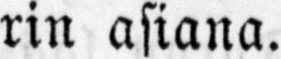rin asiana.
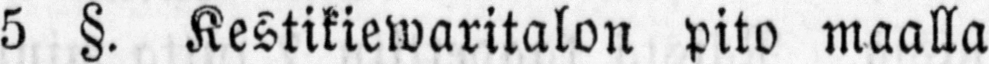5 §. Kestikiewaritalon pito maalla
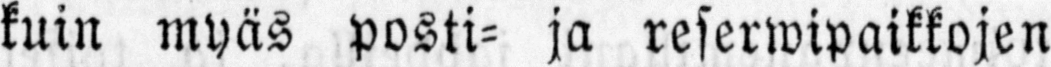kuin myäs posti- ja reserwipaikkojen
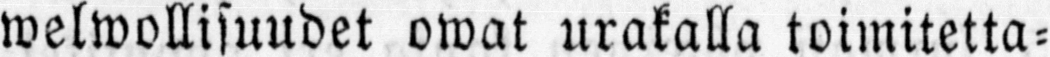welwollisuudet owat urakalla toimitetta-
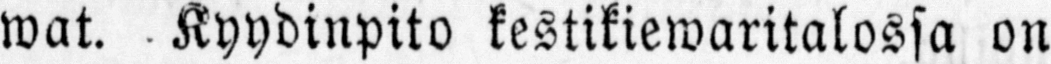wat. Kyydinpito kestikiewaritalossa on
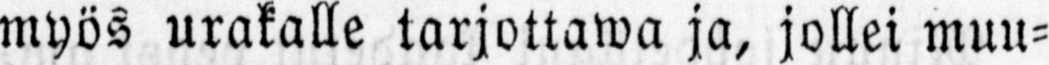myös urakalle tarjottawa ja, jollei muu-
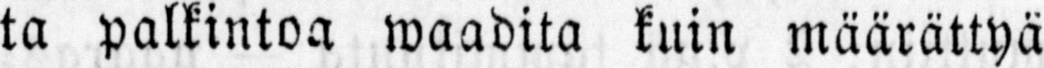ta palkintoa waadita kuin määrättyä
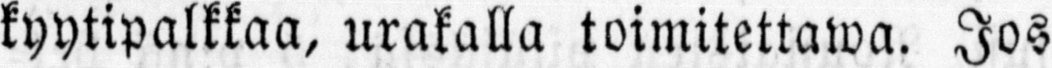kyytipalkkaa, urakalla toimitettawa. Jos
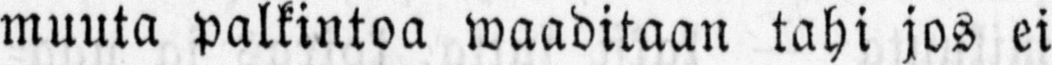muuta palkintoa waaditaan tahi jos ei
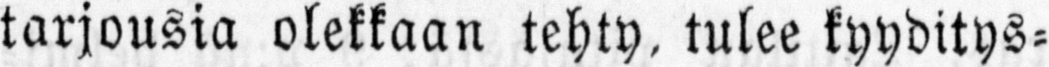tarjousia olekkaan tehty, tulee kyyditys-
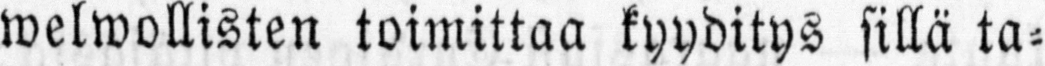welwollisten toimittaa kyyditys sillä ta-
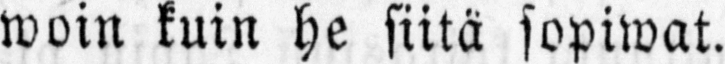woin kuin he siitä sopiwat.
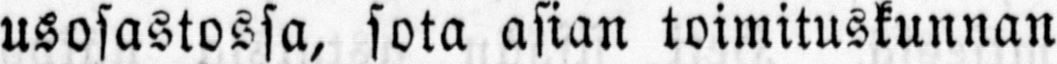usosastossa, sota asian toimituskunnan
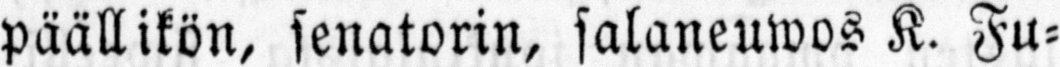päällikön, senatorin, salaneuwos K. Fu-
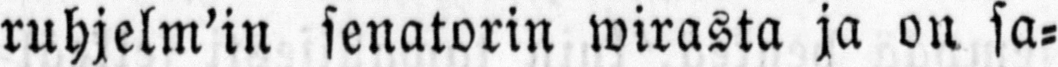ruhjelm'in senatorin wirasta ja on sa-
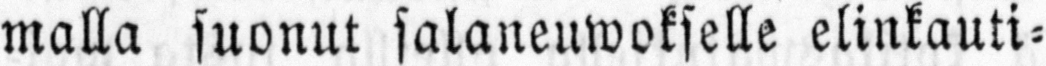malla suonut salaneuwokselle elinkauti-
